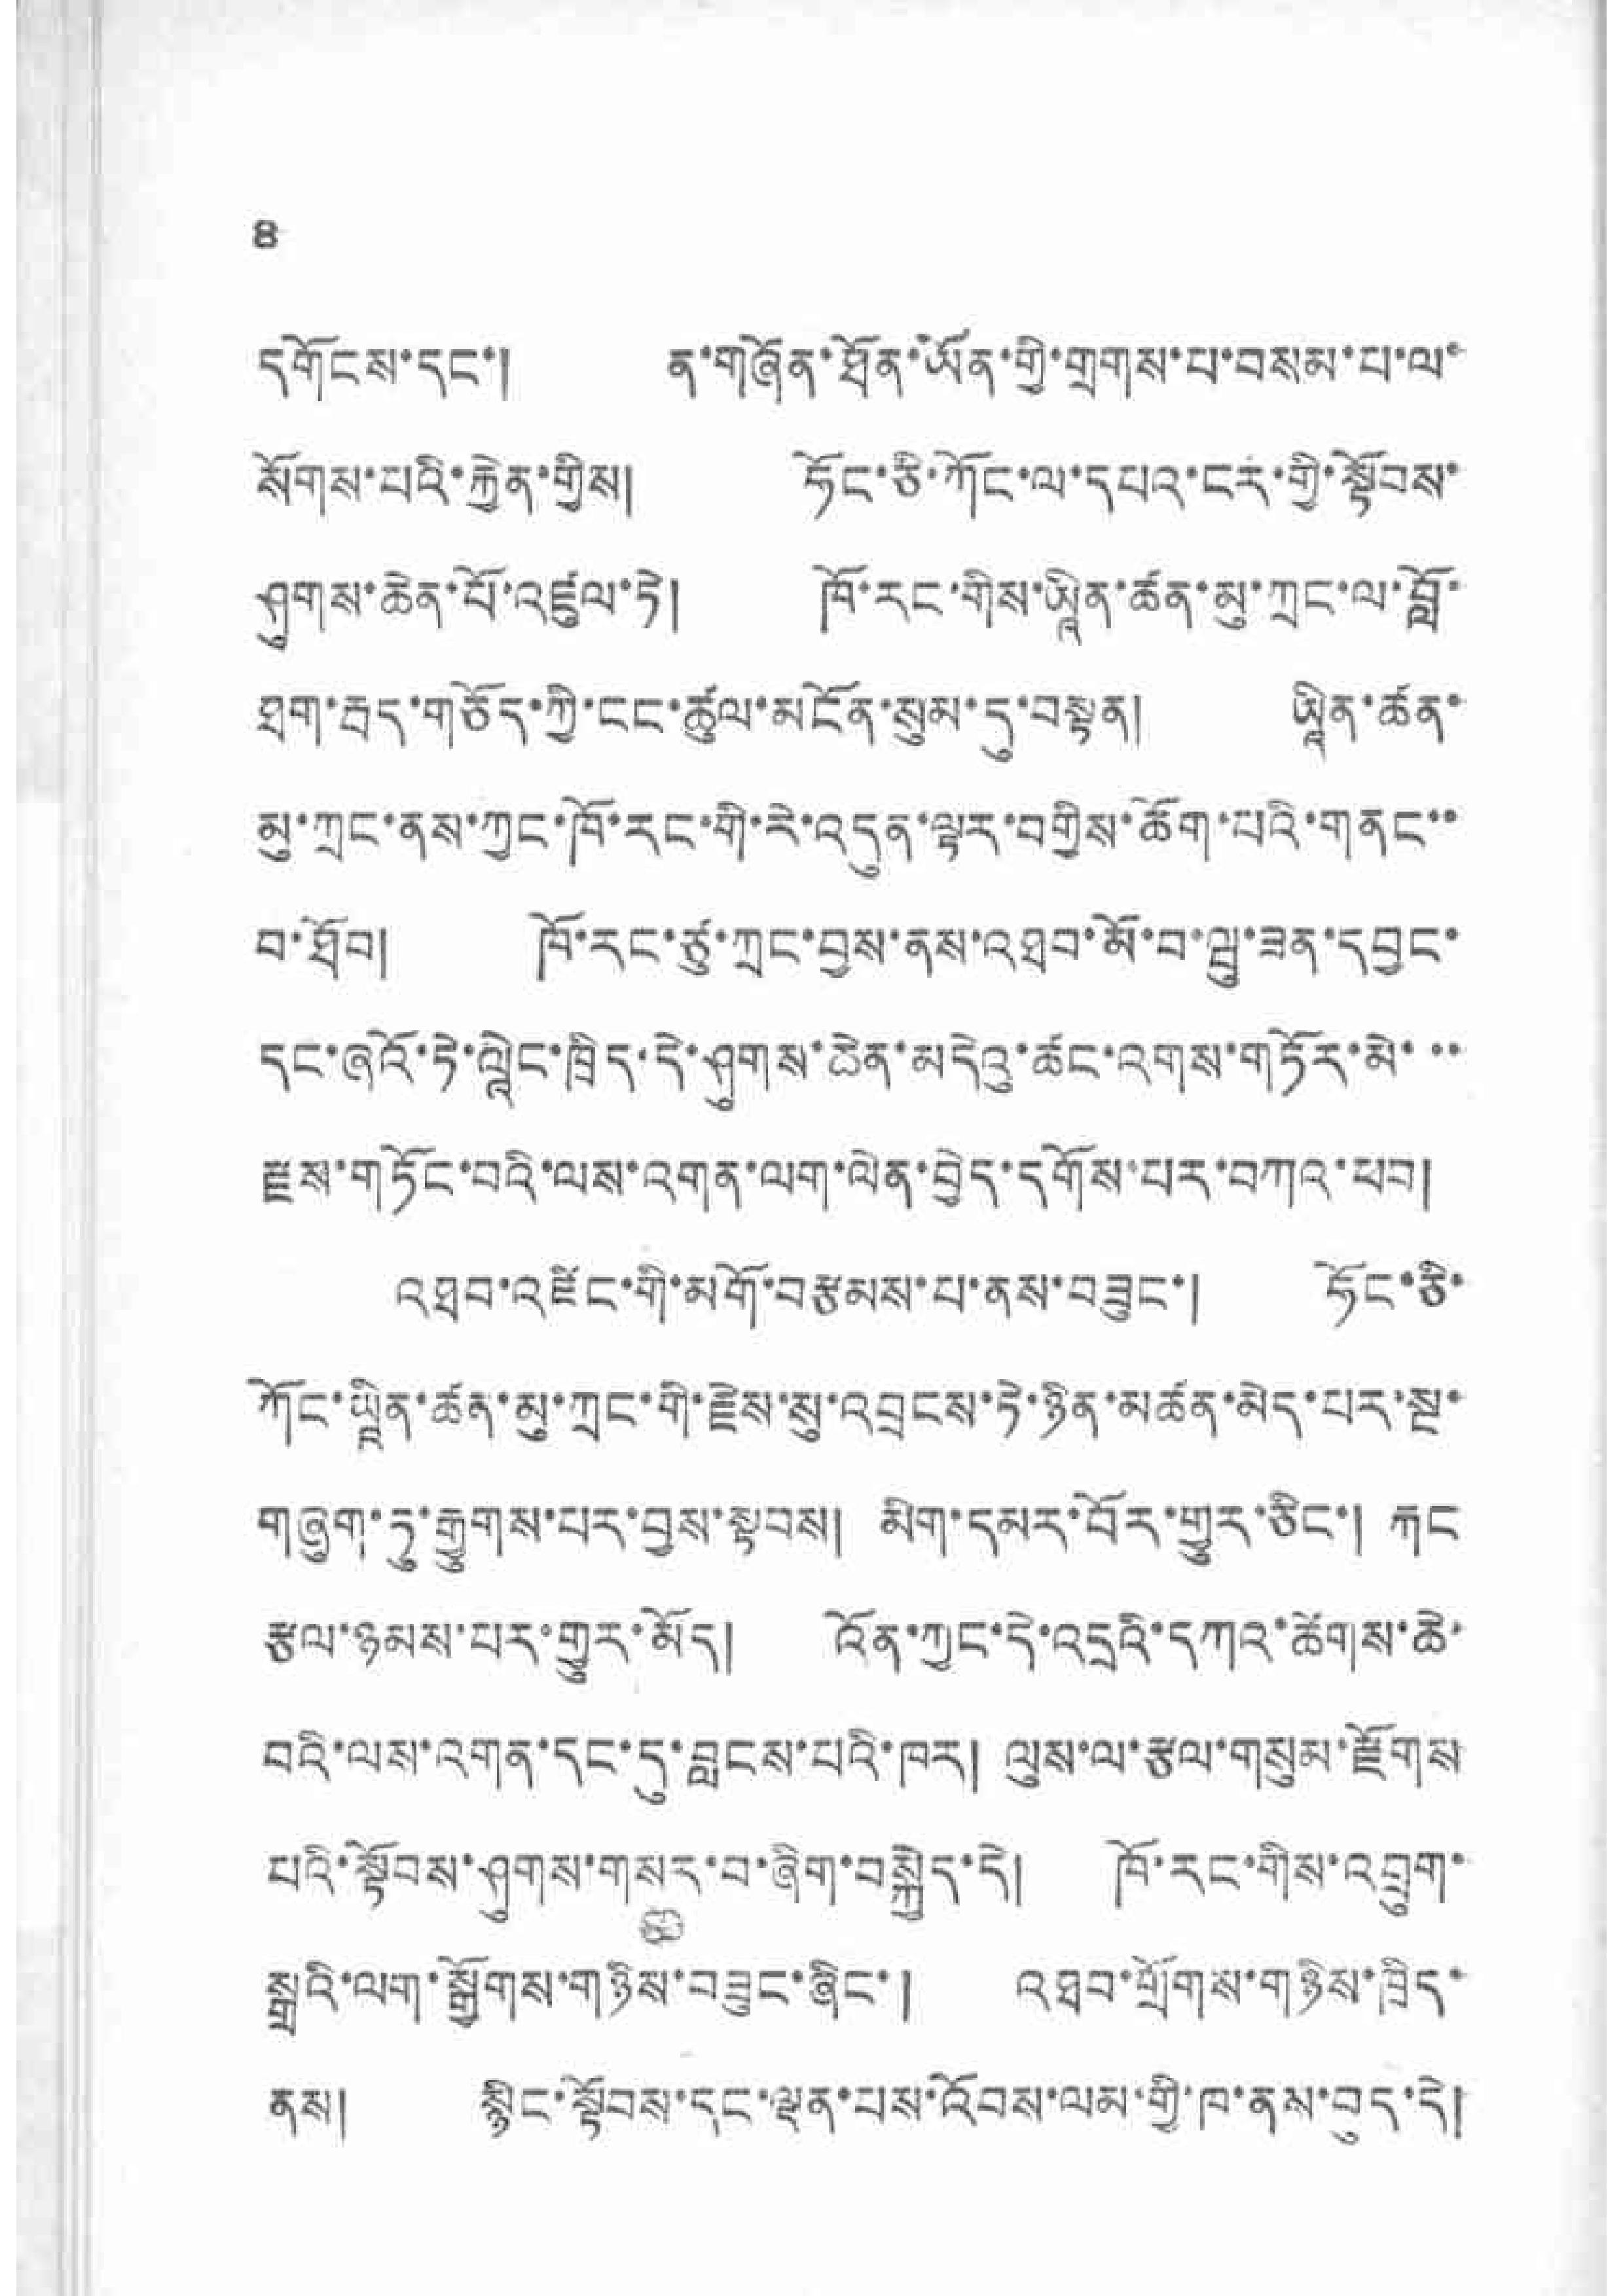8
དགོངས་དང་། ན་གཞོན་ཐོན་ཡོན་གྱི་གྲགས་པ་བསམ་པ་ལ་
སོགས་པའི་རྐྱེན་གྱིས།། ཧོང་ཧི་ཀོང་ལ་དཔའ་ངར་གྱི་སྟོབས་
ཤུགས་ཆེན་པོ་འཛུལ་ཏེ། ཁོ་རང་གིས་ཡཱིན་ཚན་མུ་ཀྲང་ལ་བློ་
ཐག་རྦད་གཅོད་ཀྱི་ངང་ཚུལ་མངོན་སུམ་དུ་བསྟུན། ཡཱིན་ཚན་
མུ་ཀྲང་ནས་ཀྱང་ཁོ་རང་གི་རེ་འདུན་ལྟར་བགྱིས་ཆོག་པའི་གནང་་
བ་ཐོབ། ཁོ་རང་ཙུ་ཀྲང་བྱས་ནས་འཐབ་མོ་བ་ཝུ་ཟན་དབྱང་
དང་ཞའོ་ཏེ་ལཱེང་ཁྲིད་དེ་ཤུགས་ཆེན་མདེའུ་ཚང་འགས་གཏོར་མེ་་་
རྫས་གཏོང་བའི་ལས་འགན་ལག་ལེན་བྱེད་དགོས་པར་བཀའ་ཕབ།
འཐབ་འཛིང་གི་མགོ་བརྩམས་པ་ནས་བཟུང་། ཧོང་ཅི་
ཀོང་ཡཱིན་ཚན་མུ་ཀྲང་གི་རྗེས་སུ་འབྲངས་ཏེ་ཉིན་མཚན་མེད་པར་སྔ་
གཞུག་ཏུ་རྒྱུགས་པར་བྱས་སྟབས། མིག་དམར་བོར་གྱུར་ཅིང་། རྐང
རྩལ་ཉམས་པར་གྱུར་མོད། འོན་ཀྱང་དེ་འདྲའི་དཀའ་ཚེགས་ཆེ་
བའི་ལས་འགན་དང་དུ་བླངས་པའི་ཁར། ལུས་ལ་རྩལ་གསུམ་རྫོགས
པའི་སྟོབས་ཤུགས་གསར་བ་ཞིག་བསྐྱེད་དེ། ཁོ་རང་གིས་འབྲུག་
སྒྲའི་ལག་སྒྱོགས་གཉིས་བཟུང་ཞིང་། འཐབ་གྲོགས་གཉིས་ཁྲིད་
ནས། སྙིང་སྟོབས་དང་ལྡན་པས་འོབས་ལམ་གྱི་ཁ་ནས་བུད་དེ།
